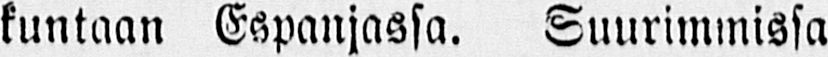kuntaan Espanjassa. Suurimmissa
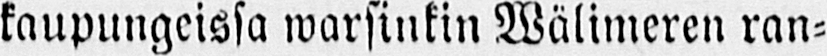kaupungeissa warsinkin Wälimeren ran-
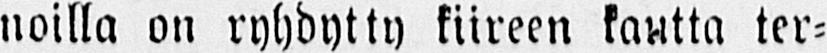noilla on ryhdytty kiireen kautta ter-
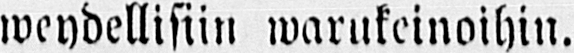weydellisiin warukeinoihin.
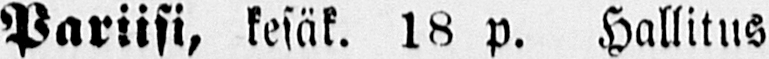Pariisi, kesäk. 18 p. Hallitus
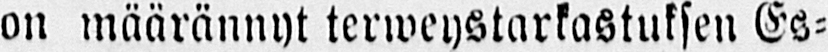on määrännyt terweystarkastuksen Es-
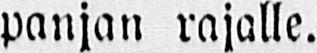panjan rajalle.
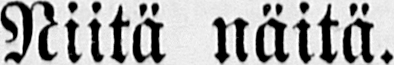Niitä näitä.
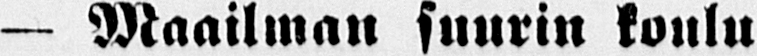— Maailman suurin koulu-
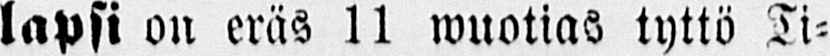lapsi on eräs 11 wuotias tyttö Ti-
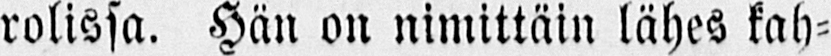rolissa. Hän on nimittäin lähes kah-
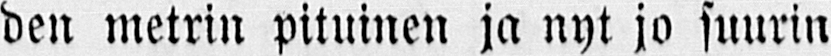den metrin pituinen ja nyt jo suurin
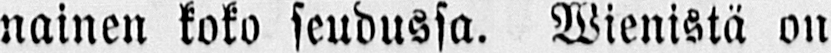nainen koko seudussa. Wienistä on
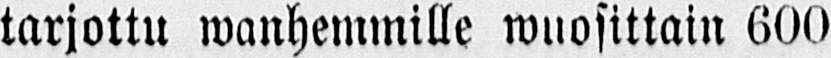tarjottu wanhemmille wuosittain 600
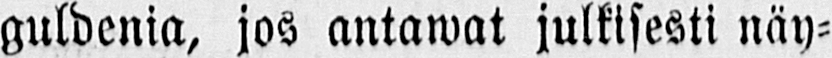guldenia, jos antawat julkisesti näy-
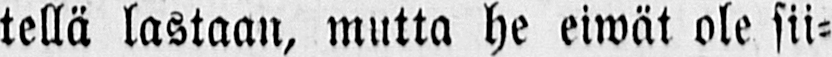tellä lastaan, mutta he eiwät ole sii-
